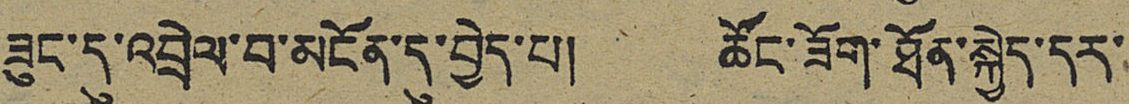ཟུང་དུ་འབྲེལ་བ་མངོན་དུ་བྱེད་པ། ཚོང་ཟོག་ཐོན་སྐྱེད་དར་
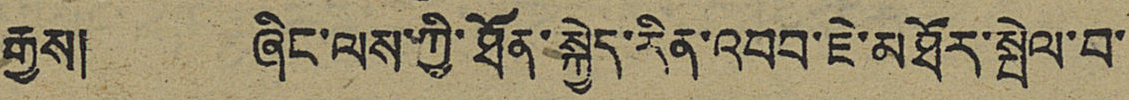རྒྱས། ཞིང་ལས་ཀྱི་ཐོན་སྐྱེད་རིན་འབབ་ཇེ་མཐོར་སྤེལ་བ་
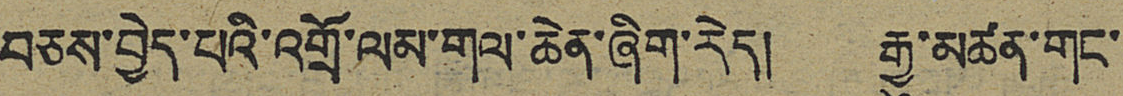བཅས་བྱེད་པའི་འགྲོ་ལམ་གལ་ཆེན་ཞིག་རེད། རྒྱུ་མཚན་གང་
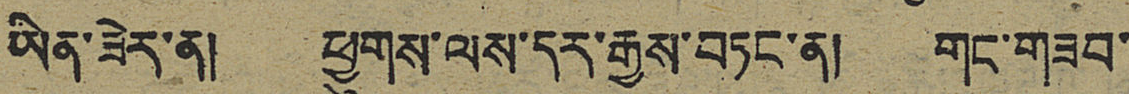ཡིན་ཟེར་ན། ཕྱུགས་ལས་དར་རྒྱས་བཏང་ན། གང་གཟབ་
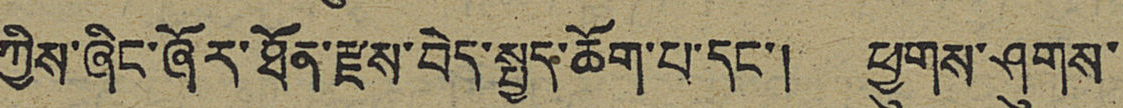ཀྱིས་ཞིང་ཞོར་ཐོན་རྫས་བེད་སྤྱད་ཆོག་པ་དང་། ཕྱུགས་ཤུགས་
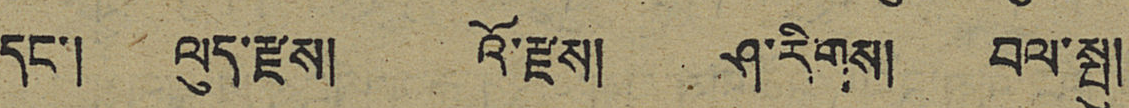དང་། ལུད་རྫས། འོ་རྫས། ཤ་རིགས། བལ་སྤུ།
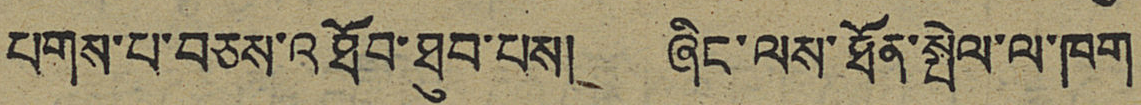པགས་པ་བཅས་འཐོབ་ཐུབ་པས། ཞིང་ལས་ཐོན་སྤེལ་ལ་ཁག་
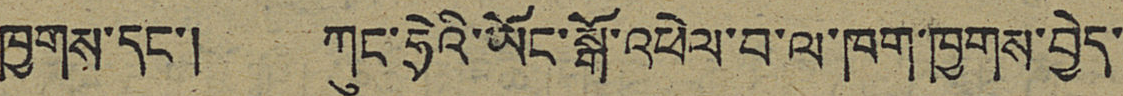ཁྱགས་དང་། ཀུང་ཧྲེའི་ཡོང་སྒོ་འཕེལ་བ་ལ་ཁག་ཁྱགས་བྱེད་
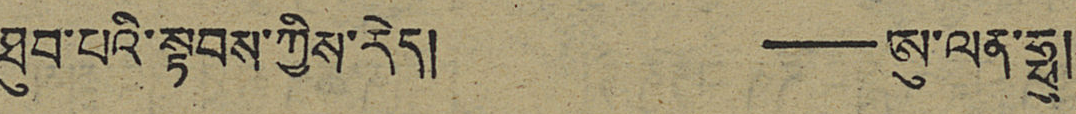ཐུབ་པའི་སྟབས་ཀྱིས་རེད། ——ཨུ་ལན་ཧྥུ།
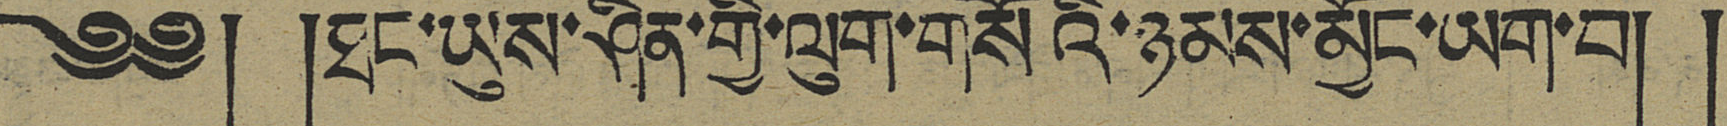༄༅། །ཐང་ཡུས་ཤིན་གྱི་ལུག་གསོའི་ཉམས་མྱོང་ཡག་བ། །
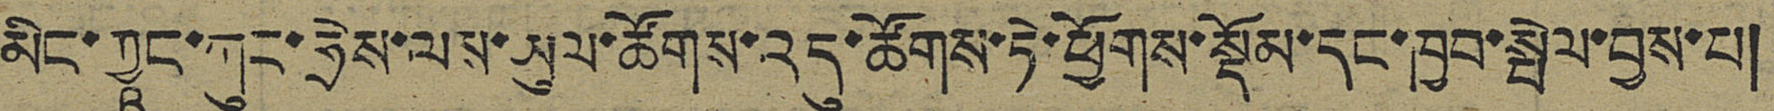མིང་ཀྱཱང་ཀུང་ཧྲེས་ལས་ཡུལ་ཚོགས་འདུ་ཚོགས་ཏེ་ཕྱོགས་སྡོམ་དང་ཁྱབ་སྤེལ་བྱས་པ།
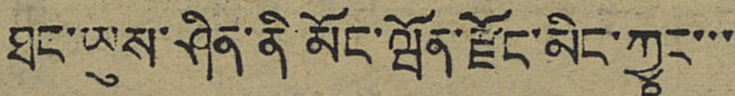ཐང་ཡུས་ཤིན་ནི་མོང་ཝོན་རྫོང་མིང་ཀྱཱང་་་
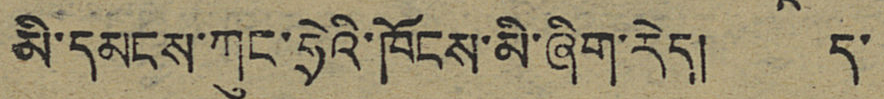མི་དམངས་ཀུང་ཧྲེའི་ཁོངས་མི་ཞིག་རེད། ད་
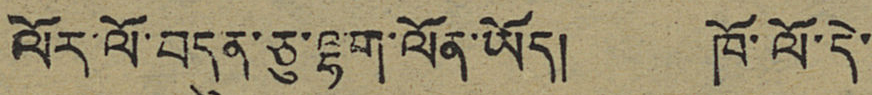ལོར་ལོ་བདུན་ཅུ་ལྷག་ལོན་ཡོད། ཁོ་ལོ་དེ་
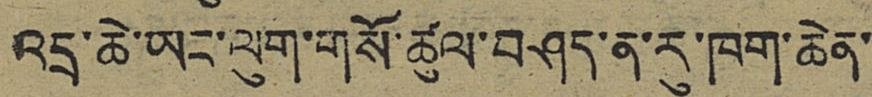འདྲ་ཆེ་ཡང་ལུག་གསོ་ཚུལ་བཤད་ན་རུ་ཁག་ཆེན་
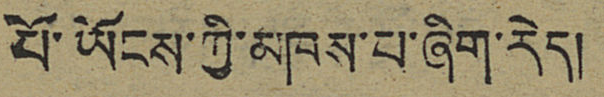པོ་ཡོངས་ཀྱི་མཁས་པ་ཞིག་རེད།
